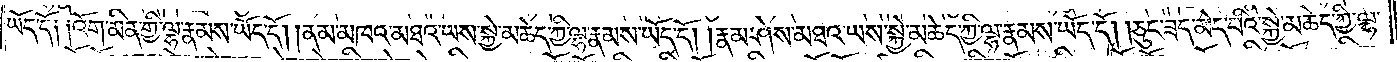ཡོད་དོ། །འོག་མིན་གྱི་ལྷ་རྣམས་ཡོད་དོ། །ནམ་མཁའ་མཐའ་ཡས་སྐྱེ་མཆེད་ཀྱི་ལྷ་རྣམས་ཡོད་དོ། །རྣམ་ཤེས་མཐའ་ཡས་སྐྱེ་མཆེད་ཀྱི་ལྷ་རྣམས་ཡོད་དོ། །ཅུང་ཟད་མེད་པའི་སྐྱེ་མཆེད་ཀྱི་ལྷ་
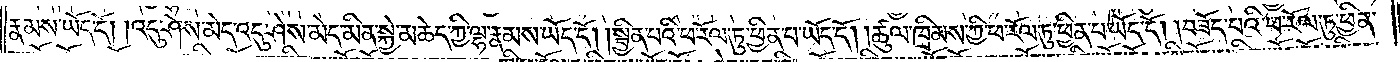རྣམས་ཡོད་དོ། །འདུ་ཤེས་མེད་འདུ་ཤེས་མེད་མིན་སྐྱེ་མཆེད་ཀྱི་ལྷ་རྣམས་ཡོད་དོ། །སྦྱིན་པའི་ཕ་རོལ་ཏུ་ཕྱིན་པ་ཡོད་དོ། །ཚུལ་ཁྲིམས་ཀྱི་ཕ་རོལ་ཏུ་ཕྱིན་པ་ཡོད་དོ། །བཟོད་པའི་ཕ་རོལ་ཏུ་ཕྱིན་
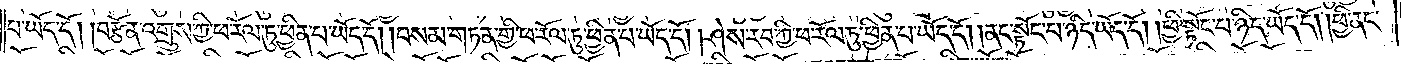པ་ཡོད་དོ། །བརྩོན་འགྲུས་ཀྱི་ཕ་རོལ་ཏུ་ཕྱིན་པ་ཡོད་དོ། །བསམ་གཏན་གྱི་ཕ་རོལ་ཏུ་ཕྱིན་པ་ཡོད་དོ། །ཤེས་རབ་ཀྱི་ཕ་རོལ་ཏུ་ཕྱིན་པ་ཡོད་དོ། །ནང་སྟོང་པ་ཉིད་ཡོད་དོ། །ཕྱི་སྟོང་པ་ཉིད་ཡོད་དོ། །ཕྱི་ནང་
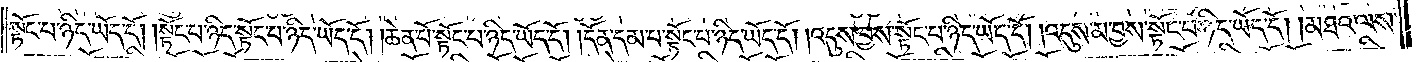སྟོང་པ་ཉིད་ཡོད་དོ། །སྟོང་པ་ཉིད་སྟོང་པ་ཉིད་ཡོད་དོ། །ཆེན་པོ་སྟོང་པ་ཉིད་ཡོད་དོ། །དོན་དམ་པ་སྟོང་པ་ཉིད་ཡོད་དོ། །འདུས་བྱས་སྟོང་པ་ཉིད་ཡོད་དོ། །འདུས་མ་བྱས་སྟོང་པ་ཉིད་ཡོད་དོ། །མཐའ་ལས་
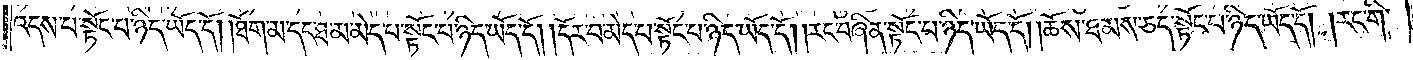འདས་པ་སྟོང་པ་ཉིད་ཡོད་དོ། །ཐོག་མ་དང་ཐ་མ་མེད་པ་སྟོང་པ་ཉིད་ཡོད་དོ། །དོར་བ་མེད་པ་སྟོང་པ་ཉིད་ཡོད་དོ། །རང་བཞིན་སྟོང་པ་ཉིད་ཡོད་དོ། །ཆོས་ཐམས་ཅད་སྟོང་པ་ཉིད་ཡོད་དོ། །རང་གི་
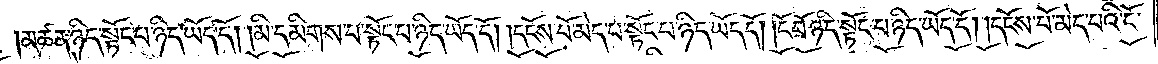མཚན་ཉིད་སྟོང་པ་ཉིད་ཡོད་དོ། །མི་དམིགས་པ་སྟོང་པ་ཉིད་ཡོད་དོ། །དངོས་པོ་མེད་པ་སྟོང་པ་ཉིད་ཡོད་དོ། །ངོ་བོ་ཉིད་སྟོང་པ་ཉིད་ཡོད་དོ། །དངོས་པོ་མེད་པའི་ངོ་
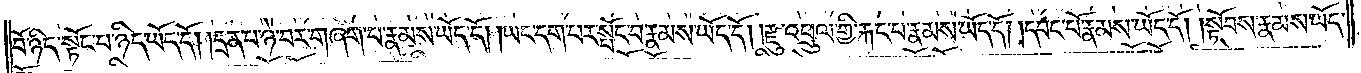བོ་ཉིད་སྟོང་པ་ཉིད་ཡོད་དོ། །དྲན་པ་ཉེ་བར་གཞག་པ་རྣམས་ཡོད་དོ། །ཡང་དག་པར་སྤོང་བ་རྣམས་ཡོད་དོ། །རྫུ་འཕྲུལ་གྱི་རྐང་པ་རྣམས་ཡོད་དོ། །དབང་པོ་རྣམས་ཡོད་དོ། །སྟོབས་རྣམས་ཡོད་
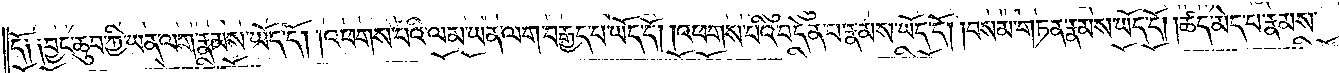དོ། །བྱང་ཆུབ་ཀྱི་ཡན་ལག་རྣམས་ཡོད་དོ། །འཕགས་པའི་ལམ་ཡན་ལག་བརྒྱད་པ་ཡོད་དོ། །འཕགས་པའི་བདེན་པ་རྣམས་ཡོད་དོ། །བསམ་གཏན་རྣམས་ཡོད་དོ། །ཚད་མེད་པ་རྣམས་
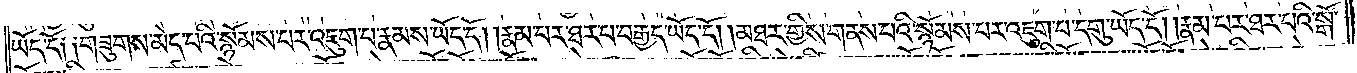ཡོད་དོ། །གཟུགས་མེད་པའི་སྙོམས་པར་འཇུག་པ་རྣམས་ཡོད་དོ། །རྣམ་པར་ཐར་པ་བརྒྱད་ཡོད་དོ། །མཐར་གྱིས་གནས་པའི་སྙོམས་པར་འཇུག་པ་དགུ་ཡོད་དོ། །རྣམ་པར་ཐར་པའི་སྒོ་
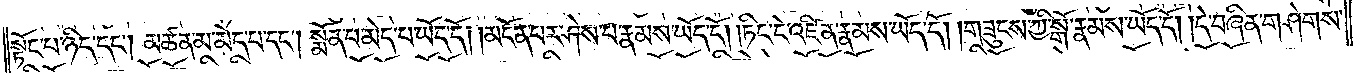སྟོང་པ་ཉིད་དང༌། མཚན་མ་མེད་པ་དང༌། སྨོན་པ་མེད་པ་ཡོད་དོ། །མངོན་པར་ཤེས་པ་རྣམས་ཡོད་དོ། །ཏིང་ངེ་འཛིན་རྣམས་ཡོད་དོ། །གཟུངས་ཀྱི་སྒོ་རྣམས་ཡོད་དོ། །དེ་བཞིན་གཤེགས་
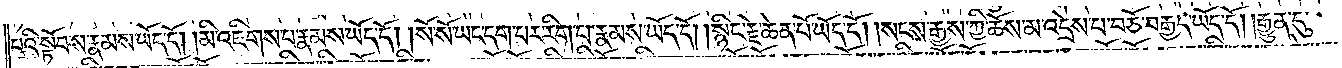པའི་སྟོབས་རྣམས་ཡོད་དོ། །མི་འཇིགས་པ་རྣམས་ཡོད་དོ། །སོ་སོ་ཡང་དག་པར་རིག་པ་རྣམས་ཡོད་དོ། །སྙིང་རྗེ་ཆེན་པོ་ཡོད་དོ། །སངས་རྒྱས་ཀྱི་ཆོས་མ་འདྲེས་པ་བཅོ་བརྒྱད་ཡོད་དོ། །རྒྱུན་དུ་
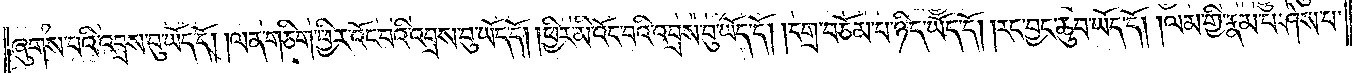ཞུགས་པའི་འབྲས་བུ་ཡོད་དོ། །ལན་གཅིག་ཕྱིར་འོང་བའི་འབྲས་བུ་ཡོད་དོ། །ཕྱིར་མི་འོང་པའི་འབྲས་བུ་ཡོད་དོ། །དགྲ་བཅོམ་པ་ཉིད་ཡོད་དོ། །རང་བྱང་ཆུབ་ཡོད་དོ། །ལམ་གྱི་རྣམ་པ་ཤེས་པ་
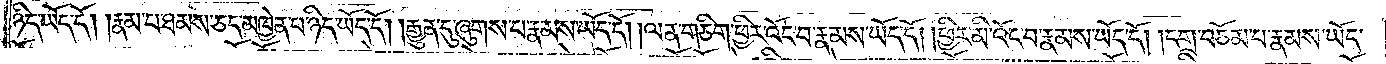ཉིད་ཡོད་དོ། །རྣམ་པ་ཐམས་ཅད་མཁྱེན་པ་ཉིད་ཡོད་དོ། །རྒྱུན་དུ་ཞུགས་པ་རྣམས་ཡོད་དོ། །ལན་གཅིག་ཕྱིར་འོང་བ་རྣམས་ཡོད་དོ། །ཕྱིར་མི་འོང་བ་རྣམས་ཡོད་དོ། །དགྲ་བཅོམ་པ་རྣམས་ཡོད་
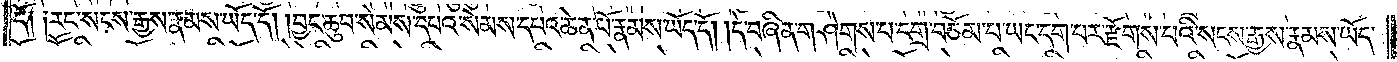དོ། །རང་སངས་རྒྱས་རྣམས་ཡོད་དོ། །བྱང་ཆུབ་སེམས་དཔའ་སེམས་དཔའ་ཆེན་པོ་རྣམས་ཡོད་དོ། །དེ་བཞིན་གཤེགས་པ་དགྲ་བཅོམ་པ་ཡང་དག་པར་རྫོགས་པའི་སངས་རྒྱས་རྣམས་ཡོད་
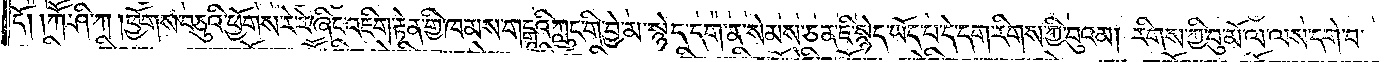དོ། །ཀཽ་ཤི་ཀ །ཕྱོགས་བཅུའི་ཕྱོགས་རེ་རེ་ཞིང་འཇིག་རྟེན་གྱི་ཁམས་གངྒཱའི་ཀླུང་གི་བྱེ་མ་སྙེད་དག་ན་སེམས་ཅན་ཇི་སྙེད་ཡོད་པ་དེ་དག་རིགས་ཀྱི་བུའམ། རིགས་ཀྱི་བུ་མོ་ལ་ལས་དགེ་བ་
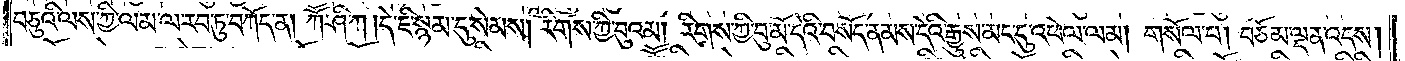བཅུའི་ལས་ཀྱི་ལམ་ལ་རབ་ཏུ་བཀོད་ན། ཀཽ་ཤི་ཀ །དེ་ཇི་སྙམ་དུ་སེམས། རིགས་ཀྱི་བུའམ། རིགས་ཀྱི་བུ་མོ་དེའི་བསོད་ནམས་དེའི་རྒྱུས་མང་དུ་འཕེལ་ལམ། གསོལ་བ། བཅོམ་ལྡན་འདས།
